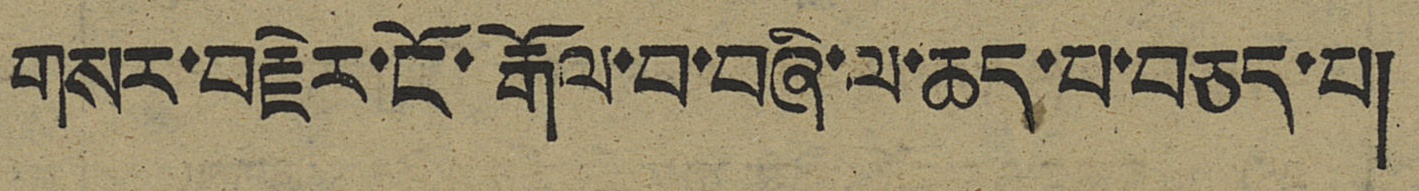གསར་བརྗེར་ངོ་རྒོལ་བ་བཞི་ལ་ཆད་པ་བཅད་པ།
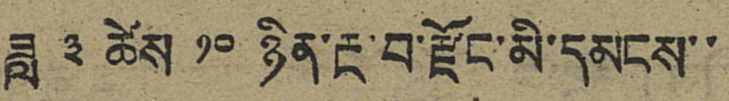ཟླ ༣ ཚེས ༡༠ ཉིན་རྔ་བ་རྫོང་མི་དམངས་་
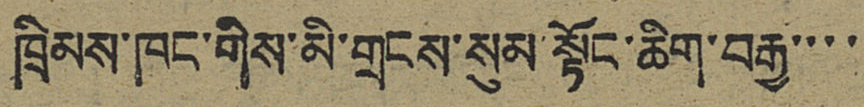ཁྲིམས་ཁང་གིས་མི་གྲངས་སུམ་སྟོང་ཆིག་བརྒྱ་་་་
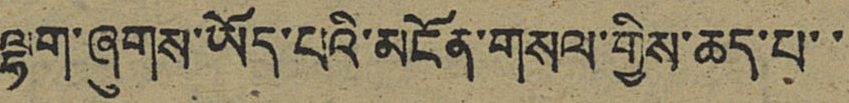ལྷག་ཞུགས་ཡོད་པའི་མངོན་གསལ་གྱིས་ཆད་པ་་
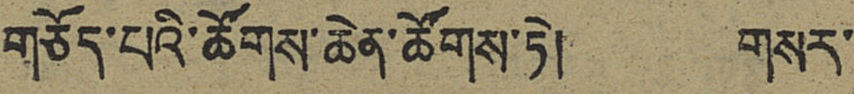གཅོད་པའི་ཚོགས་ཆེན་ཚོགས་ཏེ། གསར་
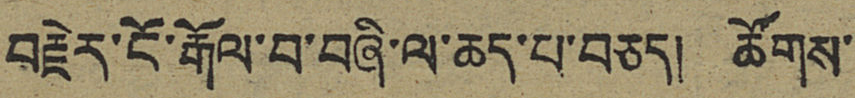བརྗེར་ངོ་རྒོལ་བ་བཞི་ལ་ཆད་པ་བཅད། ཚོགས་
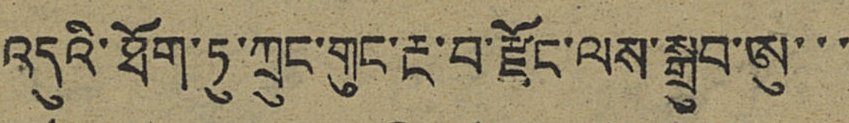འདུའི་ཐོག་ཏུ་ཀྲུང་གུང་རྔ་བ་རྫོང་ལས་སྒྲུབ་ཨུ་་་
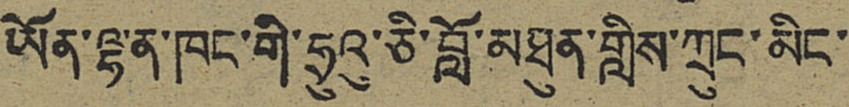ཡོན་ལྷན་ཁང་གི་ཧྲུའུ་ཅི་བློ་མཐུན་གླིས་ཀྲུང་མིང་
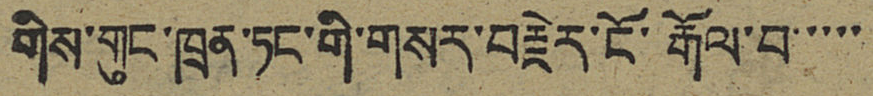གིས་གུང་ཁྲན་ཏང་གི་གསར་བརྗེར་ངོ་རྒོལ་བ་་་་
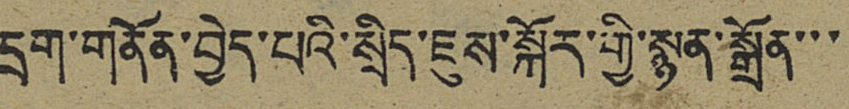དྲག་གནོན་བྱེད་པའི་སྲིད་ཇུས་སྐོར་གྱི་སྙན་སྒྲོན་་་
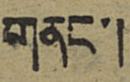གནང་།
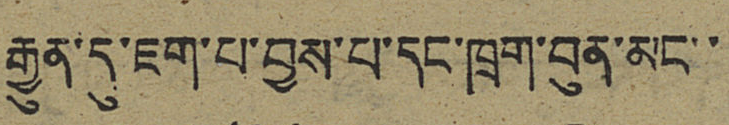རྒྱུན་དུ་ཇག་པ་བྱས་པ་དང་ཁྲག་བུན་མང་་
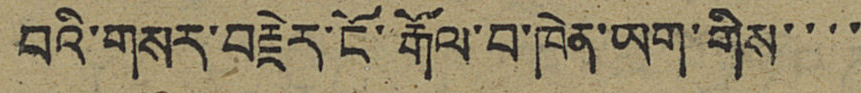བའི་གསར་བརྗེར་ངོ་རྒོལ་བ་ཁེན་ཡག་གིས་་་་
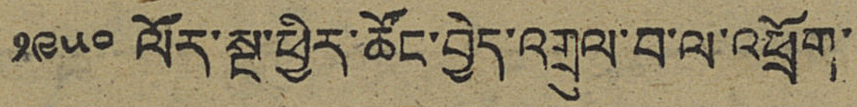༡༩༥༠ ལོར་སྔ་ཕྱིར་ཚོང་བྱེད་འགྲུལ་བ་ལ་འཕྲོག་
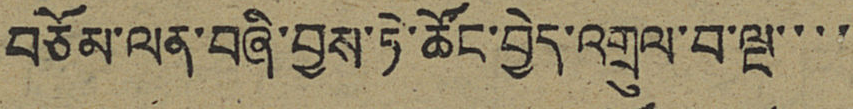བཅོམ་ལན་བཞི་བྱས་ཏེ་ཚོང་བྱེད་འགྲུལ་བ་ལྔ་་་་
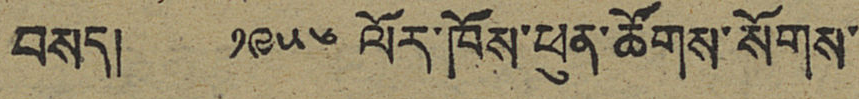བསད། ༡༩༥༦ ལོར་ཁོས་ཕུན་ཚོགས་སོགས་
